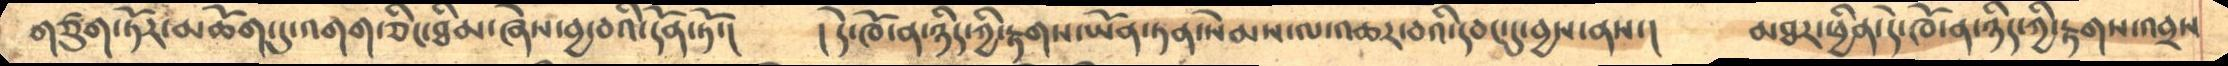གཙུག་ཏོར་མཆོག་དུ་འགག་ཅིང་ཐིམ་ཞེས་བྱ་བའི་དོན་ཏོ་།    །དེ་ཁོ་ན་ཉིད་ཀྱི་རྟགས་ཡོན་ཏན་སེམས་ལ་འཆར་བའི་དབང་དུ་བྱས་ནས་།    མཐར་ཕྱིན་དེ་ཁོ་ན་ཉིད་ཀྱི་རྟགས་འབྲས
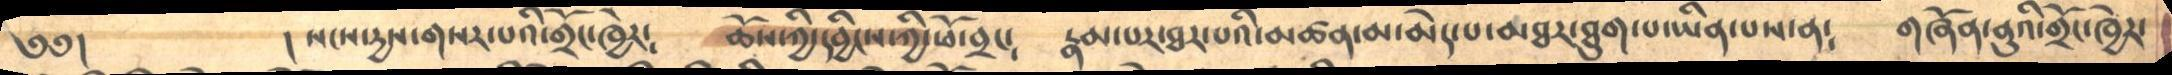༄༅།         ། སངས་དྱས་གསར་པའི་གྲོང་ཁྱེར༴    ཆོས་ཀྱི་དབྱིངས་ཀྱི་ཕོ་བྲང༴    རྣམ་པར་ཐར་པའི་མཚན་མ་མེད་པ་མཐར་ཐུག་པ་ཡིན་པས་ན༴   གཞོན་ནུའི་གྲོང་ཁྱེར་
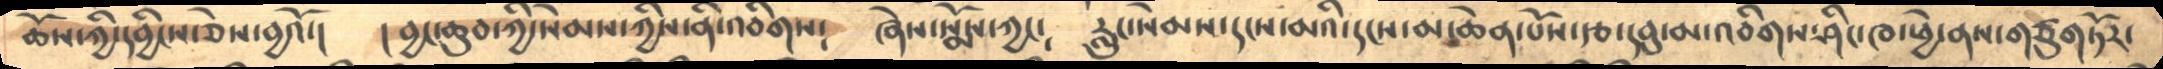ཆོས་ཀྱི་དབྱིངས་ཅེས་བྱའོ་།   ། བྱང་ཆུབ་ཀྱི་སེམས་ཀྱིས་ནི་འབིགས༴   ཞེས་སྨོས་ཀྱང༴   རླུང་སེམས་དངས་མའི་དངས་མ་ཆེན་པོས་རྩ་དབུ་མ་འབིགས་ཤིང་ཁ་ཕྱེ་ནས་གཙུགཏོར་
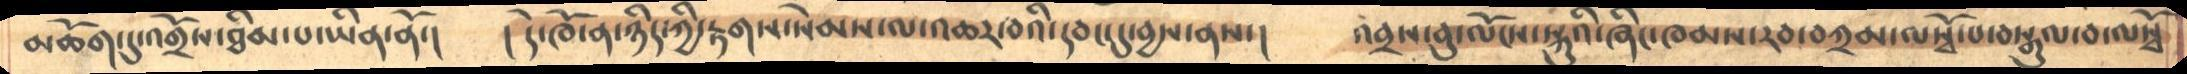མཆོག་དུ་འགྲོས་ཐིམ་པ་ཡིན་ནོ་།   ། དེ་ཁོ་ན་ཉིད་ཀྱི་རྟགས་སེམས་ལ་འཆར་བའི་དབང་དུ་བྱས་ནས་།   འབྲས་བུ་ལོངས་སྐུའི་ཞིང་ཁམས་རབ་བཀྲམ་ལསྭོ་པ་བསྒུལ་བ་ལསྭོ
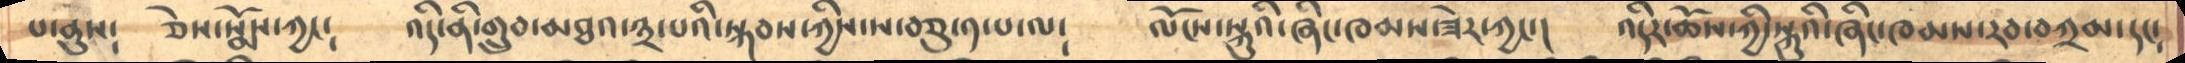པ་ནུས༴    ཅེས་སྨོས་ཀྱང༴   འདི་ནི་གྲུབ་མཐའ་༣་པའི་སྐབས་ཀྱིས་ས་བཅུ་༡་པ་ལ༴   ལོངས་སྐུའི་ཞིང་ཁམས་ཟེར་ཀྱང་།   འདིར་ཆོས་ཀྱི་སྐུའི་ཞིང་ཁམས་རབ་བཀྲམ་དང༴
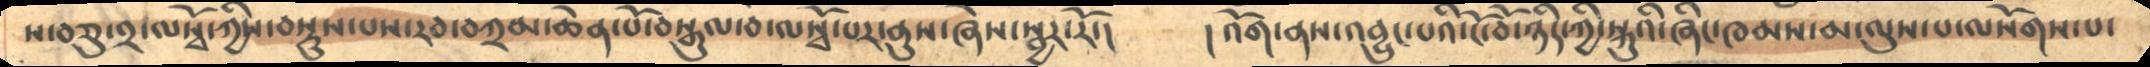ས་བཅུ་༢་ལསྭོ་ཀྱིས་བསྡུས་པས་རབ་བཀྲམ་ཆེན་པོ་བསྒུལ་བ་ལསྭོ་པར་ནུས་ཞེས་སྦྱར་རོ་།     ། འོག་ནས་འབྱུང་པའི་ངོ་བོ་ཉིད་ཀྱི་སྐུའི་ཞིང་ཁམས་མ་ལུས་པ་ལསོགས་པ་
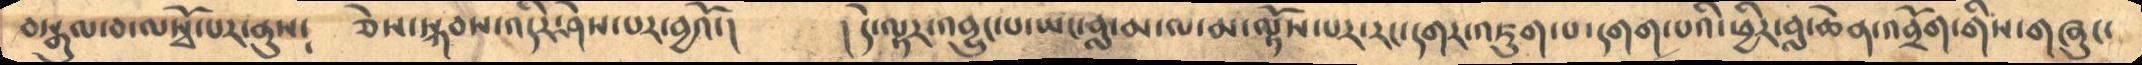བསྒུལ་བ་ལསྭོ་པར་ནུས༴  ཅེས་སྐབས་འདིར་ཤེས་པར་བྱའོ་།    ། དེ་ལྟར་འབྱུང་པ་ཡང་བླ་མ་ལ་མ་ལྟོས་པར་རང་དགར་འཇུག་པ་དགག་པའི་ཕྱིར་བླ་ཆེན་འབྲོག་གིས་གཞུང་
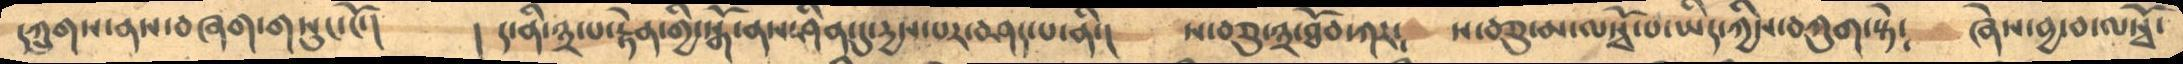དཀྲུགས་ནས་བཞག་གསུང་ངོ་།    ། ད་ནི་༣་པ་རྟེན་གྱི་སྒོ་ནས་ཤིན་དུ་དྱས་པར་བཤད་པ་ནི་།    ས་བཅུ་༣་ཐོབ་ཀར༴   ས་བཅུ་མ་ལསྭོ་པ་ཡིད་ཀྱིས་བཀུག་སྟེ༴    ཞེས་བྱ་བ་ལསྭོ་
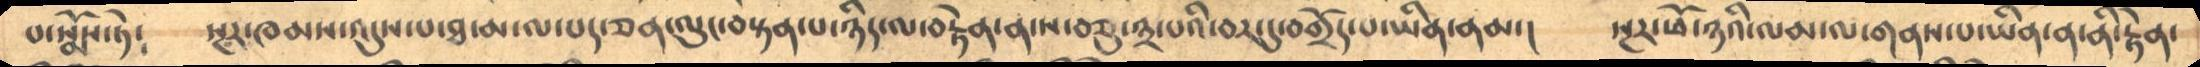པ་སྨོས་ཏེ༴    སྔར་ཁམས་འདུས་པ་ཐ་མ་ལ་པད་ཅན་ལུང་བསྟན་པ་ཉིད་ལ་བརྟེན་ན་ས་བཅུ་༣་པའི་བར་དུ་བགྲོད་པ་ཡིན་ནམ་།   སྔར་ཕོ་ཉའི་ལམ་ལ་གནས་པ་ཡིན་ན་ནི་རྟེན་
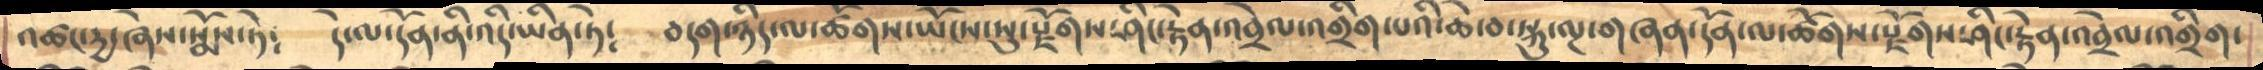འཚང་དྱ་ཞེས་སྨོས་ཏེ༴    དེ་ལ་དོན་ནི་འདི་ཡིན་ཏེ༴    བདག་ཉིད་ལ་ཚོགས་ཡོངས་སུ་སྗོགས་ཤིང་རྟེན་འབྲེལ་འགྲིག་པའི་ཆེ་བ་སྐུ་ལྔ་གཞན་དོན་ལ་ཚོགས་རྫོགས་ཤིང་རྟེན་འབྲེལ་འགྲིག་
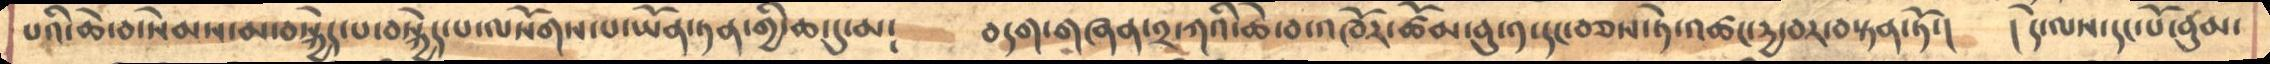པའི་ཆེ་བ་སེམས་མ་བསྐྱེད་པ་བསྐྱེད་པ་ལསོགས་པ་ཡོན་ཏན་གྱི་ཆ་དུ་མ༴    བདག་གཞན་༢་ཀའི་ཆེ་བ་འཁོར་ཚོམ་བུ་༡་དང་བཅས་ཏེ་འཚང་དྱ་བར་བསྟན་ཏོ་།    ། དེ་ལས་དང་པོ་བུམ་
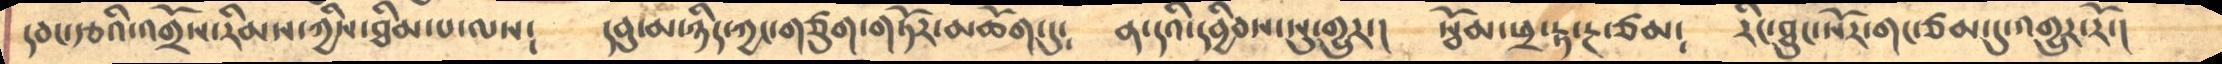དབང་རྩའི་འགྲོས་རིམས་ཀྱིས་ཐིམས་པ་ལས༴    དབུ་མ་ཉིད་ཀྱང་གཙུག་གཏོར་མཆོག་དུ༴    ན་དའི་དབྱིབས་སུ་གྱུར་།    སྦོམ་ཕྲ་རྟ་རྔ་ཙམ༴    རིང་ཐུང་སོར་གང་ཙམ་དུ་འགྱུར་རོ་།
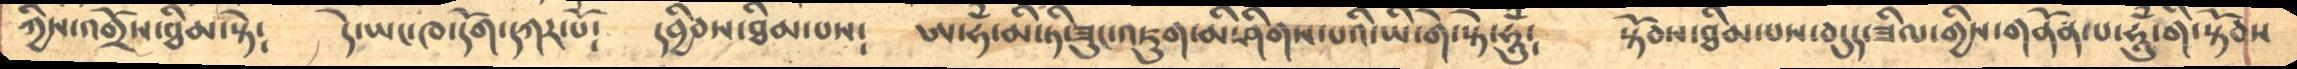ཀྱིས་འགྲོས་ཐིམ་སྟེ༴   དེ་ཡང་ཁ་དོག་དཀར་པོ༴    དབྱིབས་ཐིམ་པས༴   ཨ་ཧཾ་མི་ཏི་ཟུང་འཇུག་མི་ཤིགས་པའི་ཡི་གེ་སྟེ་ཧཱུྃ༴  སྟོབས་ཐིམ་པས་བདུད་ཟིལ་གྱིས་གནོན་པ་ཧཱུྃ་གི་སྟོབས
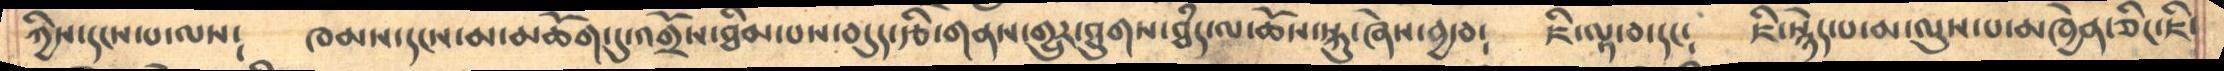ཀྱིས་དངས་པ་ལས༴     ཁམས་དངས་མ་མཆོག་དུ་འགྲོས་ཐིམ་པས་བདུད་རྩི་གནས་གྱུར་ཐུགས་ཐྃད་ལ་ཆོས་སྐུ་ཞེས་བྱ་བ༴   ཇི་ལྟ་བ་དང༴  ཇི་སྙེད་པ་མ་ལུས་པ་མཁྱེན་ཅིང་ཇི་
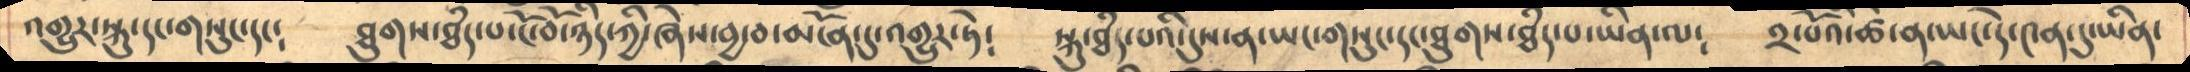འགྱུར་སྐུ་དང་གསུང་དང༴   ཐུགས་ཐྃད་པ་ངོ་བོ་ཉིད་ཀྱི་ཞེས་བྱ་བ་མངོན་དུ་འགྱུར་ཏེ༴    སྐུ་ཐྃད་པའི་དུས་ན་ཡང་གསུང་དང་ཐུགས་ཐྃད་པ་ཡིན་ལ༴    ༢་པོའི་ཚེ་ན་ཡང་དེ་༤ན་དུ་ཡིན་
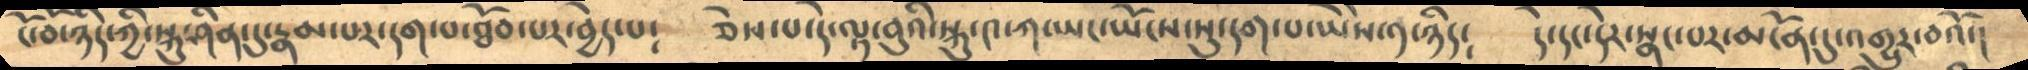ངོ་བོ་ཉིད་ཀྱི་སྐུ་ཤིན་དུ་རྣམ་པར་དག་པ་ཐོབ་པར་བྱེད་པ༴   ཅེས་པ་དེ་ལྟ་བུའི་སྐུ་༤་ཀ་ཡང་ཡོངས་སུ་དག་པ་ཡེསེ་༡་ཉིད༴    དེ་དང་དེར་སྣང་པར་མངོན་དུ་འགྱུར་བའོ་།
